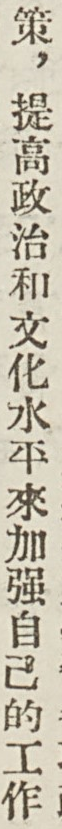策，提高政治和文化水平來加強自己的工作
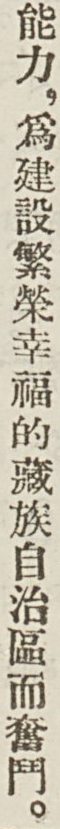能力，爲建設繁榮幸福的藏族自治區而奮鬥。
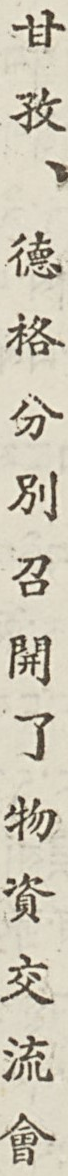甘孜、德格分別召開了物資交流會
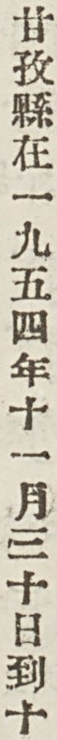甘孜縣在一九五四年十一月三十日到十
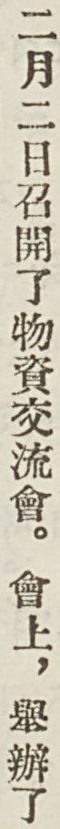二月二日召開了物資交流會。會上，舉辦了
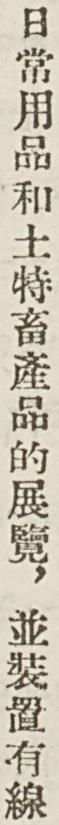日常用品和土特畜產品的展覽，並裝置有線
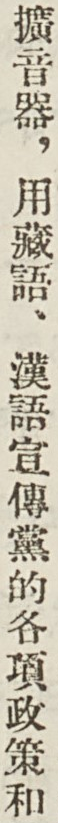擴音器，用藏語、漢語宣傳黨的各項政策和
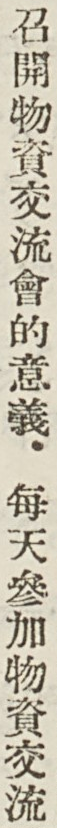召開物資交流會的意義。每天參加物資交流
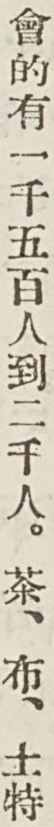會的有一千五百人到二千人。茶、布、土特
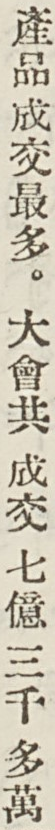產品成交最多。大會共 成交 七億 三千多萬
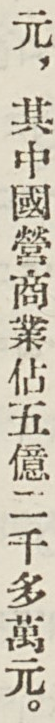元，其中國營商業佔五億二千多萬元。
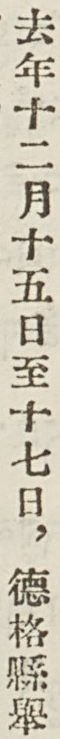去年十二月十五日至十七日，德格縣舉
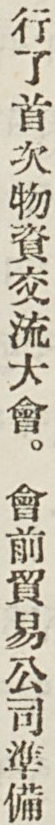行了首次物資交流大會。會前貿易公司準備
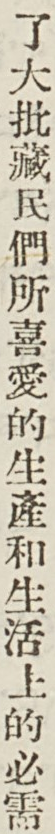了大批藏民們所喜愛的生產和生活上的必需
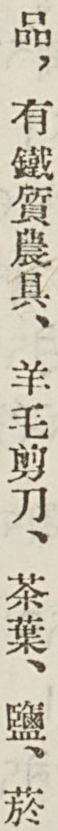品，有鐵質農具、羊毛剪刀、茶葉、鹽、菸
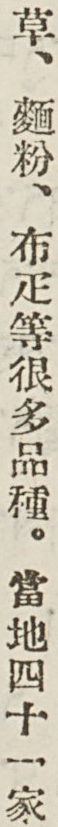草、麵粉、布疋等很多品種。當地四十一家
